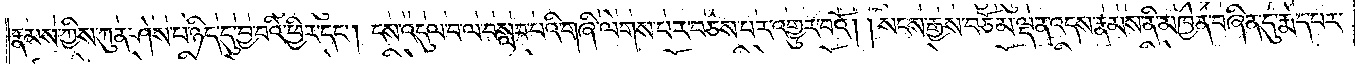རྣམས་ཀྱིས་ཀུན་ཤེས་པ་ཉིད་དུ་བྱ་བའི་ཕྱིར་དང༌། ངས་འདུལ་བ་ལ་བསླབ་པའི་གཞི་ལེགས་པར་བཅས་པར་འགྱུར་བའོ། །སངས་རྒྱས་བཅོམ་ལྡན་འདས་རྣམས་ནི་མཁྱེན་བཞིན་དུ་རྨེད་པར་
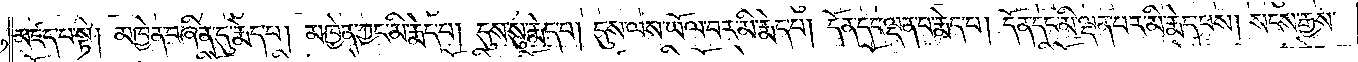མཛད་པ་སྟེ། མཁྱེན་བཞིན་དུ་རྨེད་པ། མཁྱེན་ཀྱང་མི་རྨེད་པ། དུས་སུ་རྨེད་པ། དུས་ལས་ཡོལ་བར་མི་རྨེད་པ། དོན་དང་ལྡན་པ་རྨེད་པ། དོན་དང་མི་ལྡན་པར་མི་རྨེད་པས། སངས་རྒྱས་
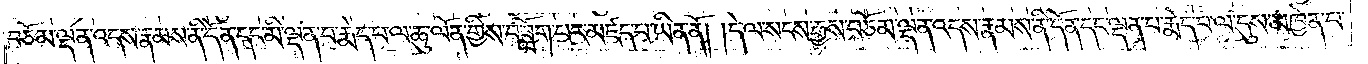བཅོམ་ལྡན་འདས་རྣམས་ནི་དོན་དང་མི་ལྡན་པ་རྨེད་པ་ལ་ཆུ་ལོན་གྱིས་བཟློག་པར་མཛད་པ་ཡིན་ནོ། །དེ་ལ་སངས་རྒྱས་བཅོམ་ལྡན་འདས་རྣམས་ནི་དོན་དང་ལྡན་པ་རྨེད་པ་ལ་དུས་མཁྱེན་པ་
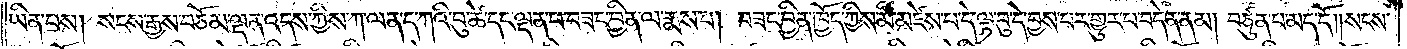ཡིན་པས། སངས་རྒྱས་བཅོམ་ལྡན་འདས་ཀྱིས་ཀ་ལན་ད་ཀའི་བུ་ཚེ་དང་ལྡན་པ་བཟང་བྱིན་ལ་རྨས་པ། བཟང་བྱིན་ཁྱོད་ཀྱིས་མི་མཛེས་པ་དེ་ལྟ་བུ་དེ་བྱས་པར་གྱུར་བ་བདེན་ནམ། བཙུན་པ་མད་དོ། །སངས་
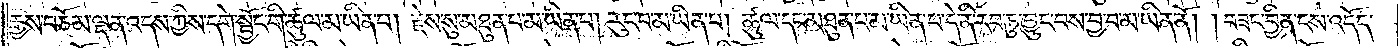རྒྱས་བཅོམ་ལྡན་འདས་ཀྱིས་དགེ་སྦྱོང་གི་ཚུལ་མ་ཡིན་པ། རྗེས་སུ་མཐུན་པ་མ་ཡིན་པ། རུང་བ་མ་ཡིན་པ། ཚུལ་དང་མཐུན་པ་མ་ཡིན་པ་དེ་ནི་རབ་ཏུ་བྱུང་བས་བྱ་བ་མ་ཡིན་ནོ། །བཟང་བྱིན་ངས་འདོད་
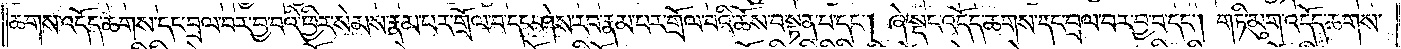ཆགས་འདོད་ཆགས་དང་བྲལ་བར་བྱ་བའི་ཕྱིར་སེམས་རྣམ་པར་གྲོལ་བ་དང་ཤེས་རབ་རྣམ་པར་གྲོལ་བའི་ཆོས་བསྟན་པ་དང༌། ཞེ་སྡང་འདོད་ཆགས་དང་བྲལ་བར་བྱ་བ་དང༌། གཏི་མུག་འདོད་ཆགས་
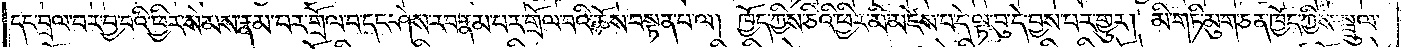དང་བྲལ་བར་བྱ་བའི་ཕྱིར་སེམས་རྣམ་པར་གྲོལ་བ་དང་ཤེས་རབ་རྣམ་པར་གྲོལ་བའི་ཆོས་བསྟན་པ་ལ། ཁྱོད་ཀྱིས་ཅིའི་ཕྱིར་མི་མཛེས་པ་དེ་ལྟ་བུ་དེ་བྱས་པར་གྱུར། མི་གཏི་མུག་ཅན་ཁྱོད་ཀྱིས་སྦྲུལ་
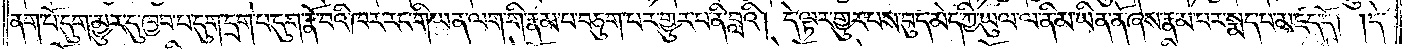ནག་པོ་དུག་མྱུར་དུ་ཁྱབ་པ་དུག་དྲག་པོ་དུག་རྣོ་བའི་ཁར་རང་གི་ཡན་ལག་གི་རྣམ་པ་བཅུག་པར་གྱུར་པ་ནི་བླའི། དེ་ལྟར་གྱུར་པས་བུད་མེད་ཀྱི་ཡུལ་ལ་ནི་མ་ཡིན་ནོ་ཞེས་རྣམ་པར་སྨད་པ་མཛད་དོ། །དེ་
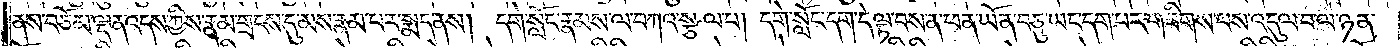ནས་བཅོམ་ལྡན་འདས་ཀྱིས་རྣམ་གྲངས་དུ་མས་རྣམ་པར་སྨད་ནས། དགེ་སློང་རྣམས་ལ་བཀའ་སྩལ་པ། དགེ་སློང་དག་དེ་ལྟ་བས་ན་ཕན་ཡོན་བཅུ་ཡང་དག་པར་གཟིགས་པས་འདུལ་བ་ལ་ཉན་
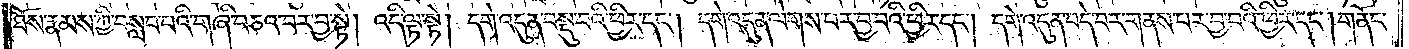ཐོས་རྣམས་ཀྱི་བསླབ་པའི་གཞི་བཅའ་བར་བྱ་སྟེ། འདི་ལྟ་སྟེ། དགེ་འདུན་བསྡུ་བའི་ཕྱིར་དང༌། དགེ་འདུན་ལེགས་པར་བྱ་བའི་ཕྱིར་དང༌། དགེ་འདུན་བདེ་བར་གནས་པར་བྱ་བའི་ཕྱིར་དང༌། གནོང་
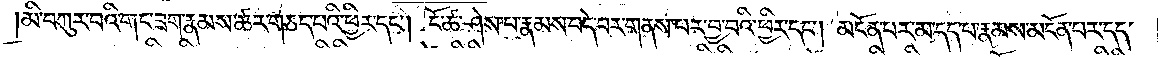།མི་བཀུར་བའི་གང་ཟག་རྣམས་ཚར་གཅད་པའི་ཕྱིར་དང༌། ངོ་ཚ་ཤེས་པ་རྣམས་བདེ་བར་གནས་པར་བྱ་བའི་ཕྱིར་དང༌། མངོན་པར་མ་དད་པ་རྣམས་མངོན་པར་དད་
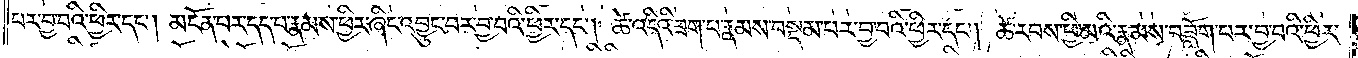པར་བྱ་བའི་ཕྱིར་དང༌། མངོན་པར་དད་པ་རྣམས་ཕྱིར་ཞིང་འབྱུང་བར་བྱ་བའི་ཕྱིར་དང༌། ཚེ་འདིའི་ཟག་པ་རྣམས་བསྡམ་པར་བྱ་བའི་ཕྱིར་དང༌། ཚེ་རབས་ཕྱི་མའི་རྣམས་བཟློག་པར་བྱ་བའི་ཕྱིར་
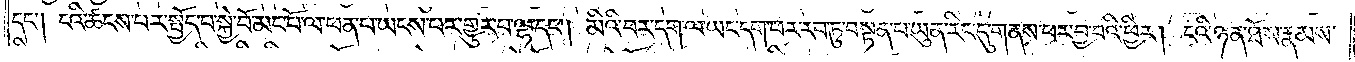དང༌། ངའི་ཚངས་པར་སྤྱོད་པ་སྐྱེ་བོ་མང་པོ་ལ་ཕན་པ་ཡངས་པར་གྱུར་པ་ལྷ་དང༌། མིའི་བར་དག་ལ་ཡང་དག་པར་རབ་ཏུ་བསྟན་པ་ཡུན་རིང་དུ་གནས་པར་བྱ་བའི་ཕྱིར། ངའི་ཉན་ཐོས་རྣམས་
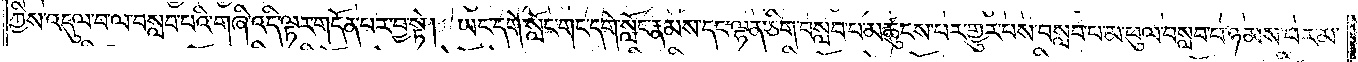ཀྱིས་འདུལ་བ་ལ་བསླབ་པའི་གཞི་འདི་ལྟར་གདོན་པར་བྱ་སྟེ། ཡང་དགེ་སློང་གང་དགེ་སློང་རྣམས་དང་ལྷན་ཅིག་བསླབ་པ་མཚུངས་པར་གྱུར་པས་བསླབ་པ་མ་ཕུལ་བསླབ་པ་ཉམས་པར་མ་
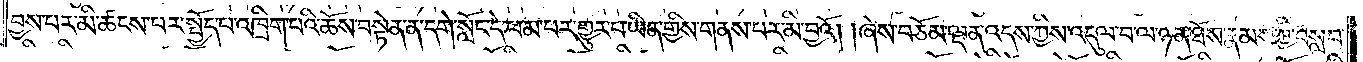བྱས་པར་མི་ཚངས་པར་སྤྱོད་པ་འཁྲིག་པའི་ཆོས་བསྟེན་ན་དགེ་སློང་དེ་ཕམ་པར་གྱུར་པ་ཡིན་གྱིས་གནས་པར་མི་བྱའོ། །ཞེས་བཅོམ་ལྡན་འདས་ཀྱིས་འདུལ་བ་ལ་ཉན་ཐོས་རྣམས་ཀྱི་བསླབ་
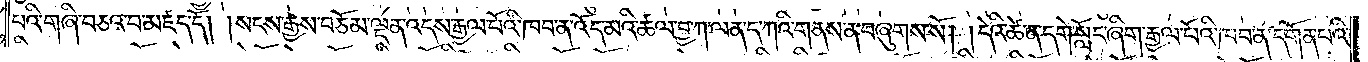པའི་གཞི་བཅའ་བ་མཛད་དོ། །སངས་རྒྱས་བཅོམ་ལྡན་འདས་རྒྱལ་པོའི་ཁབ་ན་འོད་མའི་ཚལ་བྱ་ཀ་ལན་ད་ཀའི་གནས་ན་བཞུགས་སོ། །དེའི་ཚེ་ན་དགེ་སློང་ཞིག་རྒྱལ་པོའི་ཁབ་ན་དགོན་པའི་
